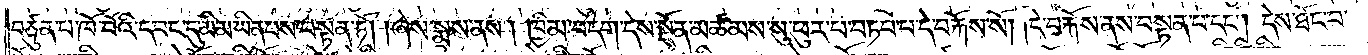བཙུན་པ་ཁོ་བོའི་དབང་དུ་མི་མ་ཡིན་པས་བསྟན་ཏོ། །ཞེས་སྨྲས་ནས། ཁྱིམ་བདག་དེས་སྔོན་མཚམས་སུ་ཕུར་པ་བཏབ་པ་དེ་བརྐོས་སོ། །དེ་བརྐོས་ནས་བསྟན་པ་དང༌། དེས་ཐོང་བ་
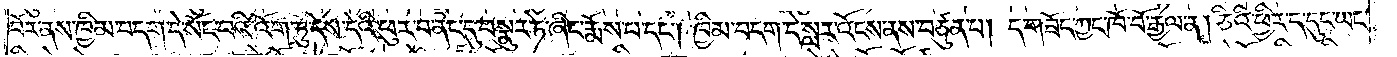བོར་ནས་ཁྱིམ་བདག་དེ་སོང་བའི་འོག་ཏུ་དེས་དེའི་ཕུར་བ་ནང་དུ་བསྣུར་ཏེ་ཞིང་རྨོས་པ་དང༌། ཁྱིམ་བདག་དེ་སླར་འོངས་ནས་བཙུན་པ། ད་གཟོད་ཀྱང་ཁོ་བོ་རྒྱལ་ན། ཅིའི་ཕྱིར་ད་དུང་ཡང་
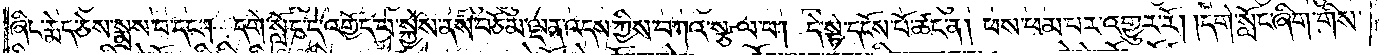ཞིང་རྨེད་ཅེས་སྨྲས་པ་དང༌། དགེ་སློང་དེ་འགྱོད་པ་སྐྱེས་ནས་བཅོམ་ལྡན་འདས་ཀྱིས་བཀའ་སྩལ་པ། དེ་སྟེ་དངོས་པོ་ཚང་ན། ཕས་ཕམ་པར་འགྱུར་རོ། །དགེ་སློང་ཞིག་གིས་
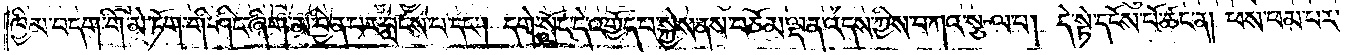ཁྱིམ་བདག་གི་མེ་ཏོག་གི་ཤིང་ཞིག་མ་བྱིན་པར་བླངས་པ་དང༌། དགེ་སློང་དེ་འགྱོད་པ་སྐྱེས་ནས་བཅོམ་ལྡན་འདས་ཀྱིས་བཀའ་སྩལ་པ། དེ་སྟེ་དངོས་པོ་ཚང་ན། ཕས་ཕམ་པར་
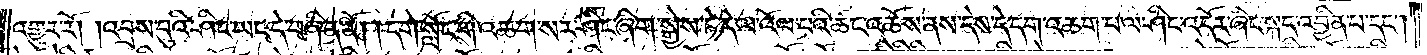འགྱུར་རོ། །འབྲས་བུའི་ཤིང་ཡང་དེ་བཞིན་ནོ། །དགེ་སློང་གི་འཆག་སར་ཤིང་ཞིག་སྐྱེས་ཏེ་དེ་ལ་འོལ་པའི་ཚང་འཆོས་ནས་དེས་དེ་དག་འཆག་པ་ལ་ཤིང་འདོར་ཞིང་སྐད་འབྱིན་པ་དང༌།
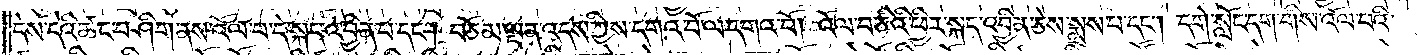དེས་དེའི་ཚང་བཤིག་ནས་འོལ་པ་དེ་སྐད་འབྱིན་པ་དང༌། བཅོམ་ལྡན་འདས་ཀྱིས་དགའ་བོ་ལ་དགའ་བོ། འོལ་བ་ཅིའི་ཕྱིར་སྐད་འབྱིན་ཅེས་སྨྲས་པ་དང༌། དགེ་སློང་དག་གིས་འོལ་པའི་
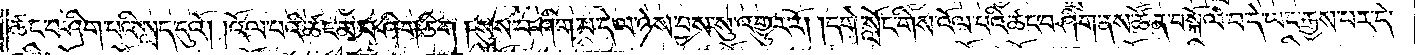ཚང་བཤིག་པའི་སླད་དུའོ། །འོལ་པའི་ཚང་མ་བཤིག་ཅིག། །སུས་བཤིག་པ་དེ་ལ་ཉེས་བྱས་སུ་འགྱུར་རོ། །དགེ་སློང་གིས་འོལ་པའི་ཚང་བཤིག་ནས་ཚོན་བསྐོལ་བ་དེ་ཡང་རྒྱས་པར་དེ་
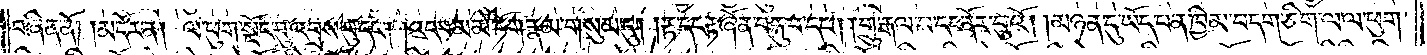བཞིན་ནོ། །མདོར་ན། ལ་ཕུག་སྡོང་བུ་འབྲས་བུ་དང༌། །འདབ་མ་མེ་ཏོག་རྣམ་གསུམ་དུ། །རྟ་དང་རྟ་ཞོན་བརྐུ་བ་དང༌། །གྲུ་རྒལ་བ་དང་ནོར་བུའོ། །མཉན་དུ་ཡོད་པ་ན་ཁྱིམ་བདག་ཅིག་ལ་ལ་ཕུག་
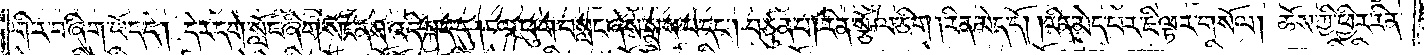གི་ར་བ་ཞིག་ཡོད་དེ། དེར་དགེ་སློང་ཞིག་སོང་ནས་འདི་སྐད་དུ། ལ་ཕུག་བསླང་ཞེས་སྨྲས་པ་དང༌། བཙུན་པ། རིན་སྩོལ་ཅིག། རིན་མེད་དོ། །རིན་མེད་པར་ཇི་ལྟར་གསོལ། ཆོས་ཀྱི་ཕྱིར་རིན་
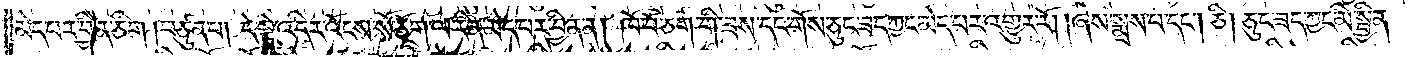མེད་པར་བྱིན་ཅིག །བཙུན་པ། དེ་སྟེ་འདིར་འོངས་སོ་ཅོག་ལ་རིན་མེད་པར་བྱིན་ན། ཁོ་བོ་ཅག་གི་ཟས་དང་གོས་ཅུང་ཟད་ཀྱང་མེད་པར་འགྱུར་རོ། །ཞེས་སྨྲས་པ་དང༌། ཅི། ཅུང་ཟད་ཀྱང་མི་སྦྱིན་
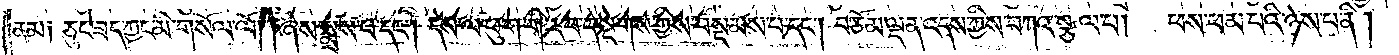ནམ༑ ཅུང་ཟད་ཀྱང་མི་གསོལ་ལོ། །ཞེས་སྨྲས་པ་དང༌། དེས་ལ་ཕུག་གི་ར་བ་དེ་སྔགས་ཀྱིས་བསྡམས་པ་དང༌། བཅོམ་ལྡན་འདས་ཀྱིས་བཀའ་སྩལ་པ། ཕས་ཕམ་པའི་ཉེས་པ་ནི།
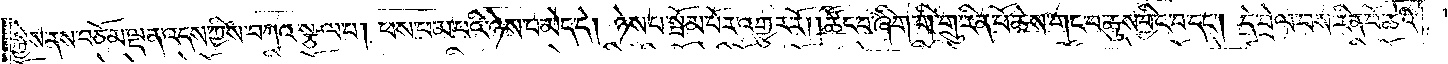སྐྱེས་ནས་བཅོམ་ལྡན་འདས་ཀྱིས་བཀའ་སྩལ་པ། ཕས་ཕམ་པའི་ཉེས་པ་མེད་དེ། ཉེས་པ་སྦོམ་པོར་འགྱུར་རོ། །ཚོང་བ་ཞིག་གི་གྲུ་རིན་པོ་ཆེས་གང་བ་ཆུས་བྱིང་བ་དང༌། དེ་བྲེལ་བས་རིན་པོ་ཆེའི་
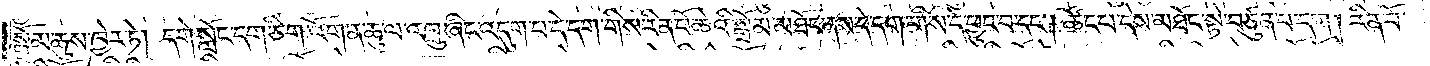སྒྲོམ་ཆུས་ཁྱེར་ཏེ། དགེ་སློང་དག་ཅིག་འོག་ན་ཆུ་ལ་འཁྲུ་ཞིང་འདུག་པ་དེ་དག་གིས་རིན་པོ་ཆེའི་སྒྲོམ་མཐོང་ནས་དེ་དག་གིས་དེ་ཕྱུང་བ་དང༌། ཚོང་པ་དེས་མཐོང་སྟེ་བཙུན་པ་དག། རིན་པོ་
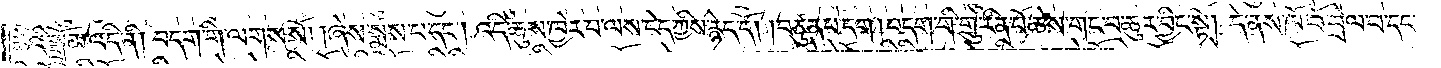ཆེའི་སྒྲོམ་འདི་ནི། བདག་གི་ལགས་སོ། །ཞེས་སྨྲས་པ་དང༌། འདི་ཆུས་ཁྱེར་བ་ལས་ངེད་ཀྱིས་རྙེད་དོ། །བཙུན་པ་དག །བདག་གི་གྲུ་རིན་པོ་ཆེས་གང་བ་ཆུར་བྱིང་སྟེ། དེ་ནས་ཁོ་བོ་བྲེལ་བ་དང་
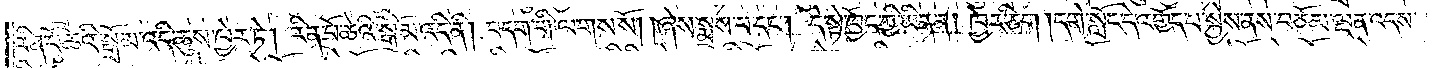རིན་པོ་ཆེའི་སྒྲོམ་འདི་ཆུས་ཁྱེར་ཏེ། རིན་པོ་ཆེའི་སྒྲོམ་འདི་ནི། བདག་གི་ལགས་སོ། །ཞེས་སྨྲས་པ་དང༌། དེ་སྟེ་ཁྱོད་ཀྱི་ཡིན་ན། ཁྱེར་ཅིག །དགེ་སློང་དེ་འགྱོད་པ་སྐྱེས་ནས་བཅོམ་ལྡན་འདས་
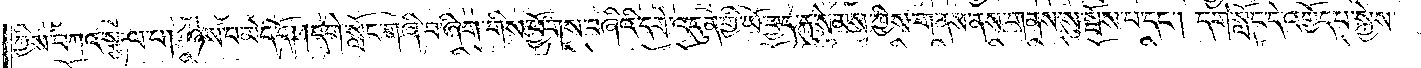ཀྱིས་བཀའ་སྩལ་པ། ཉེས་པ་མེད་དོ། །དགེ་སློང་གཞི་བ་ཞིག་གིས་ཕྱོགས་བཞིའི་དགེ་འདུན་གྱི་ཡོ་བྱད་རྐུ་སེམས་ཀྱིས་གནས་ནས་གནས་སུ་སྤོས་པ་དང༌། དགེ་སློང་དེ་འགྱོད་པ་སྐྱེས་
